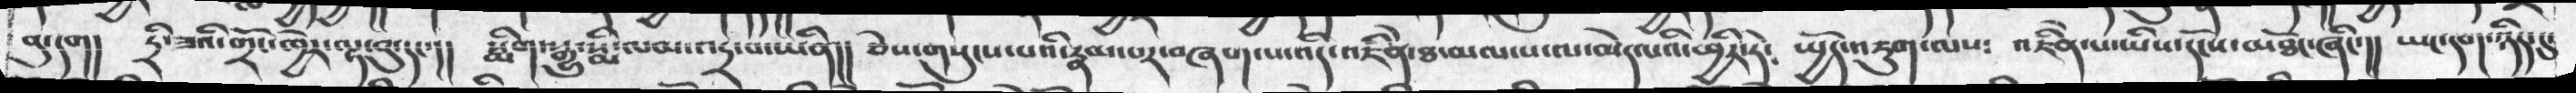བུ་དག།  ཏྲི་ཟའི་གྲོང་ཁྱེར་ལྟ་བུ་དང་།།  སྨིག་སྒྱུ་སྨི་ལམ་འདྲ་བ་ཡིན།།  ཅེས་གསུངས་པའི་རྣམ་པར་བཞག་པ་འདི་འཇིེན་ཐ་མལ་པ་ལ་མེད་པའི་ཕྱིར་རོ༴   སྤྱོད་འཇུག་ལས༴  འཇིེན་པ་ཡིས་དངོས་མཐོང་ཞིང་།།   ཡང་དག་ཉིད་དུ་
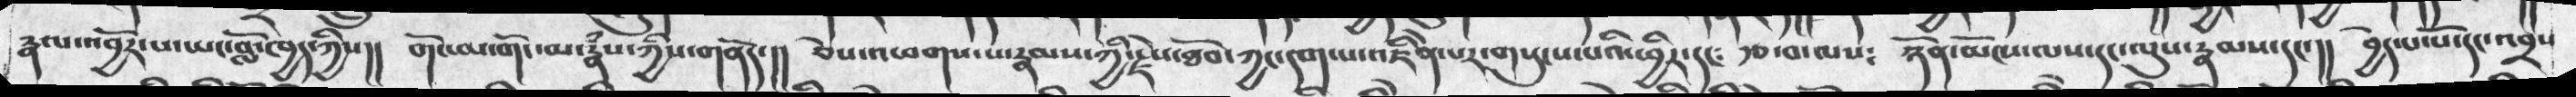རྣལ་འབྱོར་པ་ཡང་བློ་ཁྱད་ཀྱིས།།  གོང་མ་གོང་ལ་རྣཾས་ཀྱིས་གནོད་།།  ཅེས་འཕགས་པ་རྣམས་ཀྱི་རྗེས་ཐོབ་ཀྱང་དག་པ་འཇིེན་པར་གསུངས་པའི་ཕྱིར་དང༴  རྩ་བ་ལས༴  ཉོན་མོངས་ལས་དང་ལུས་རྣམས་དང་།།  བྱེད་པ་པོ་དང་འབྲས
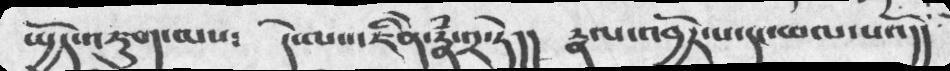སྤྱོད་འཇུག་ལས༴  དེ་ལས་འཇིེན་རྣཾ་༢་ཏེ།།  རྣལ་འབྱོར་པ་དང་ཕལ་པའོ།།
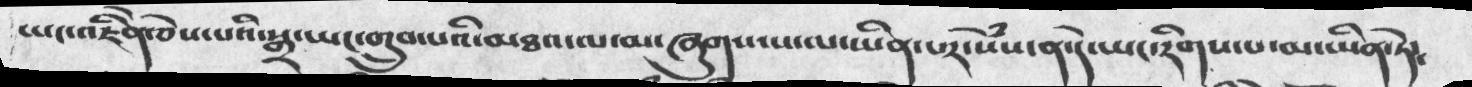ཡང་འཇིེན་ཅེས་པའི་སྒྲ་ཡང་གྲུབ་པའི་མཐའ་ལ་མ་ཞུགས་པ་ལ་ཡིན་པར་སེཾས་ན་དེ་ཡང་རིགས་པ་མ་ཡིན་ཏེ༴
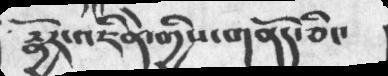རྣྱོར་འཇིེན་གྱིས་གནོད་ཅིང་
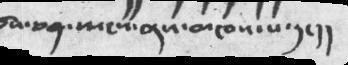ཆོས་ཅན་སྤངས་ནས་མཁས་པ་དང།།
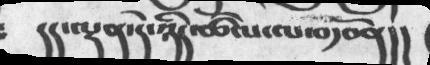དད་ལྡན་དེ་ཉིད་ཚོལ་ལ་བརྩོན།།
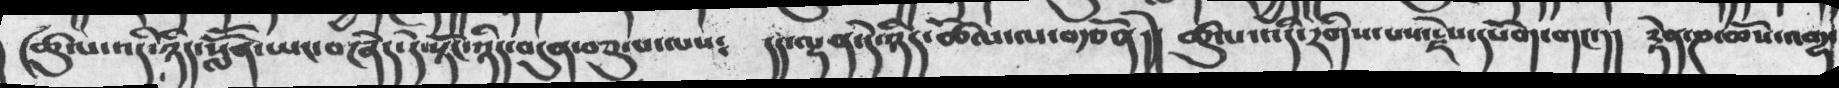།ཚུལ་འདི་ཉིད་སློོན་ཡང་བཞེད་དེ་སྟོང་ཉིད་བདུན་བཅུ་པ་ལས༴  དད་ལྡན་དེ་ཉིད་ཚོལ་ལ་བརྩོན།།  ཚུལ་འདི་རིགས་པས་རྗེས་དཔོག་གང་།།  རྟེན་ཎ་ཆོས་འགྷ་
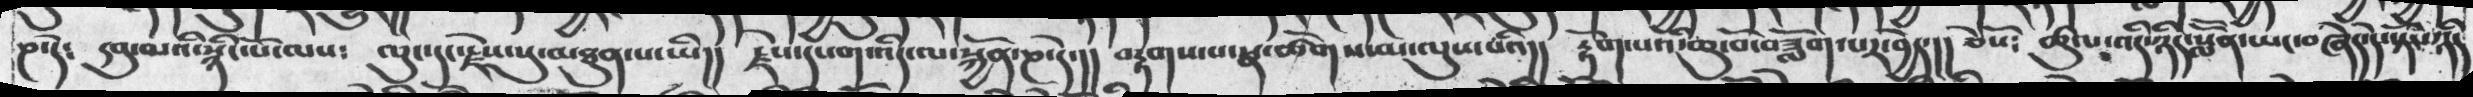ཎ་དེ༴  དབུ་མའི་སྙིང་པོ་ལས༴  ལུང་དང་རྗེས་སུ་མཐུན་པ་ཡི།།  རྗེས་དཔག་འདི་ལ་སྐྱོན་ཎ་དེ་།།   བརྟགས་པ་སྣ་ཚོགས་མ་ལུས་པའི།།  རྟོག་པའི་ཆུ་བོ་བཟློག་པར་བྱེད་།།   ཅེསོ༴  ཚུལ་འདི་ཉིད་སློོན་ཡང་བཞེད་དེ་སྟོང་ཉིད
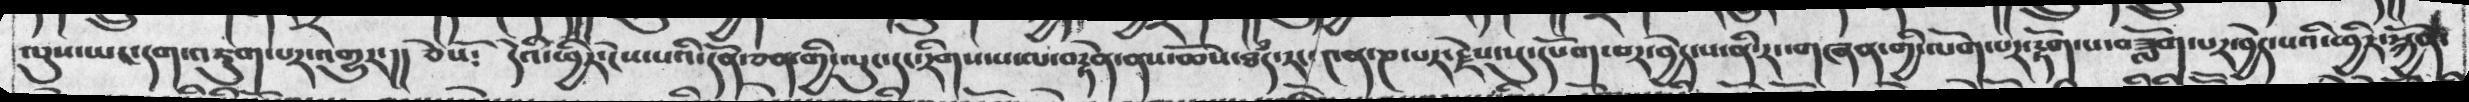ལུས་ཡང་དག་འཇུག་པར་འགྱུར་།། ཅེསོ༴  དེའི་ཕྱིར་ངེས་པའི་དོན་ཅན་གྱི་ལུང་དང་རིགས་པ་ལ་བརྟེན་ནས་ཆོས་ཐཾད་རང་༤ན་ཎ་པར་རྗེས་སུ་དཔོག་བར་བྱེད་པ་ནི་རང་གཞན་གྱི་ལོག་པར་རྟོག་པ་བཟློག་པར་བྱེད་པའི་ཕྱིར་སྐྱོན་
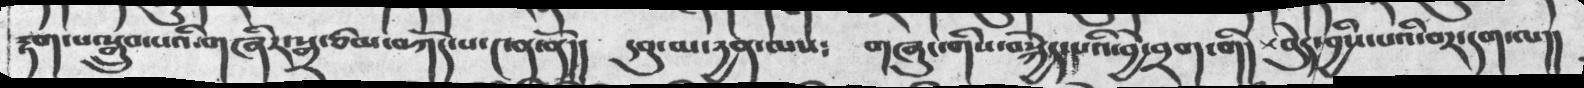རྟག་པ་སྒྲུབ་པའི་གཞིར་སྒྲ་ཙམ་བཀོད་པ་༤ན་ནོ།།  དབུ་མ་དྱན་ལས༴   གཞུང་གིས་བསྐྱེད་པའི་བྱེ་བྲག་གི།  བེུད་བྱིས་པའི་བར་དག་ལ།།
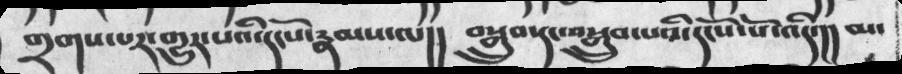གྲགས་པར་གྱུར་པའི་དངོས་རྣམས་ལ།། བསྒྲུབ་དང་བསྒྲུབ་པའི་དངོས་པོ་འདི་།། མ་
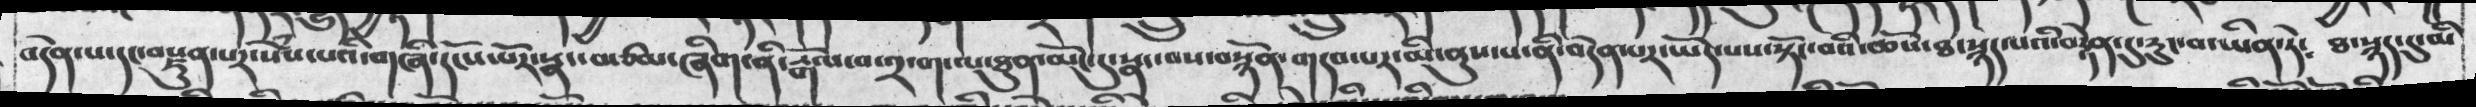བདེན་པ་དང་བརྫུན་པར་སེཾས་པའི་གཞི་དངོས་པོར་སྣང་བ་ཙམ་ཞིག་ནི་རྒོལ་བ་༢་ག་ལ་ཐུན་མོང་དུ་སྣང་བས་བསྙོན་གདབ་པར་མི་ནུས་པ་ནི་བདེན་པར་ཡོད་པས་སྟོང་བའི་ཆོས་ཐ་སྙད་པའི་བརྟེན་དུ་རུང་བ་ཡིན་ཏེ༴   ཐ་སྙད་དུ་
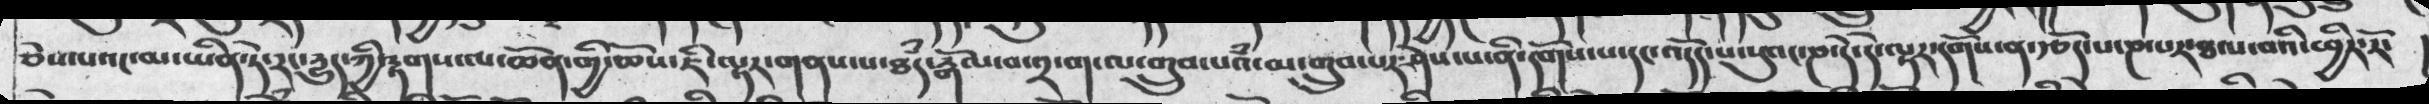ཅེས་པའང་མ་ཡིན་ཏེ་རང་དྱུད་ཀྱི་རྟགས་ལ་ཆོན་གྱི་ཆོས་ཇི་ལྟར་གནས་པ་ཐཾད་རྒོལ་བ་༢་ག་ལ་གྲུབ་པའཾ་མ་གྲུབ་པར་ཤེས་པ་ནི་དགོས་པ་དང་འདོད་པ་སུའང་ཎ་དེ་ལྟར་དགོས་ན་རྩོད་པ་ཎ་པར་ཐལ་བའི་ཕྱིར་རོ་
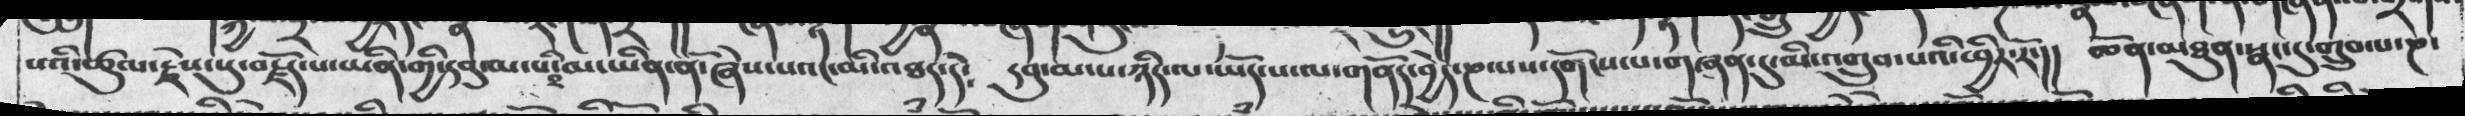པའི་ཚུལ་རྗེས་སུ་བརྗོད་པ་ཡིན་གྱི་དབུ་མ་པའི་མ་ཡིན་ནོ་ཞེས་པའང་མི་འཐད་དེ༴   དབུ་མ་པ་ཉིད་ལ་ཡོད་པ་ལ་གནོད་བྱེད་ཎ་པས་དགོངས་པ་གཞན་དུ་མི་འགྲུབ་པའི་ཕྱིར་རོ་།།  ཆོན་མཐུན་སྣང་དུ་གྲུབ་པ་ཎ་
